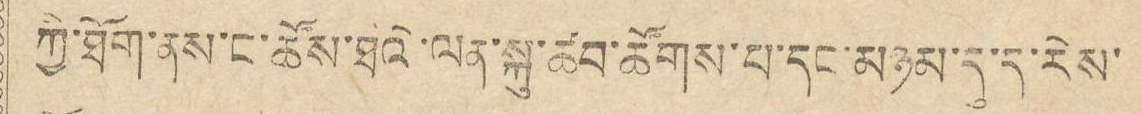ཀྱི་ཐོག་ནས་ང་ཚོས་ཐའི་ལན་སྐུ་ཚབ་ཚོགས་པ་དང་མཉམ་དུ་ད་རེས་
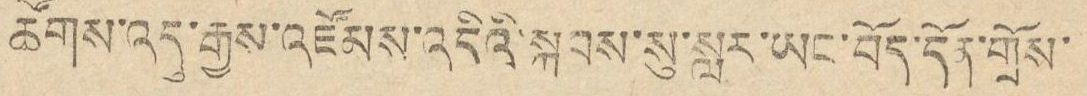ཚོགས་འདུ་རྒྱས་འཛོམས་འདིའི་སྐབས་སུ་སླར་ཡང་བོད་དོན་གྲོས་
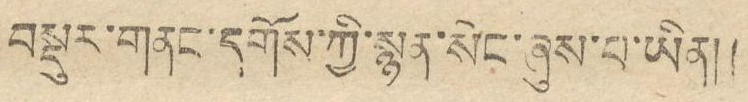བསྡུར་གནང་དགོས་ཀྱི་སྙན་སེང་ཞུས་པ་ཡིན།།
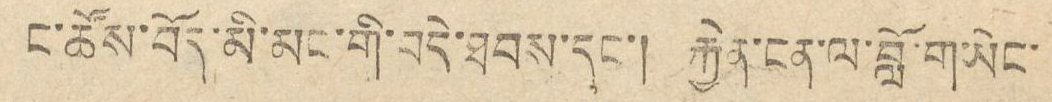ང་ཚོས་བོད་མི་མང་གི་བདེ་ཐབས་དང་། རྐྱེན་ངན་ལ་བློ་གཡེང་
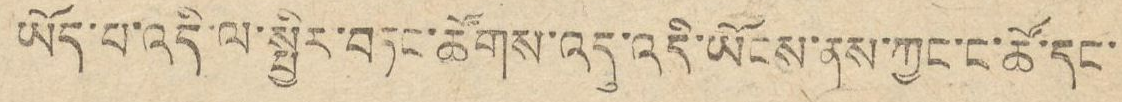ཡོད་པ་འདི་ལ་སྤྱིར་བཏང་ཚོགས་འདུ་འདི་ཡོངས་ནས་ཀྱང་ང་ཚོ་དང་
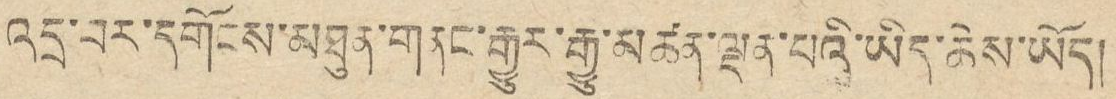འདྲ་བར་དགོངས་མཐུན་གནང་རྒྱུར་རྒྱུ་མཚན་ལྡན་པའི་ཡིད་ཆེས་ཡོད།
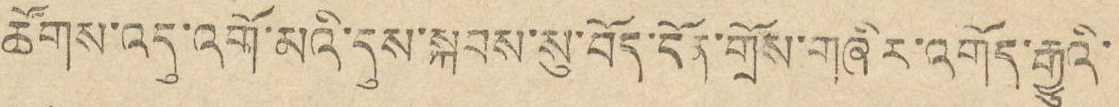ཚོགས་འདུ་འགོ་མའི་དུས་སྐབས་སུ་བོད་དོན་གྲོས་གཞི་ར་འགོད་རྒྱུའི་
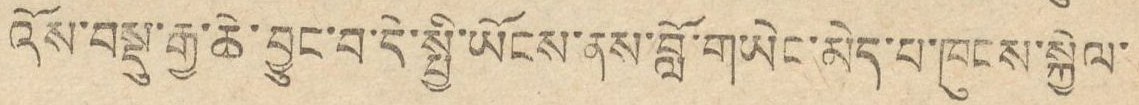འོས་བསྡུ་རྒྱ་ཆེ་བྱུང་བ་དེ་སྤྱི་ཡོངས་ནས་བློ་གཡེང་མེད་པ་ཁུངས་སྐྱེལ་་
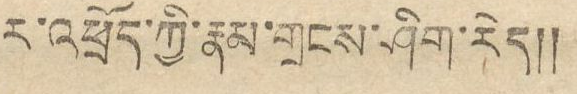ར་འཕྲོད་ཀྱི་རྣམ་གྲངས་ཤིག་རེད།༎
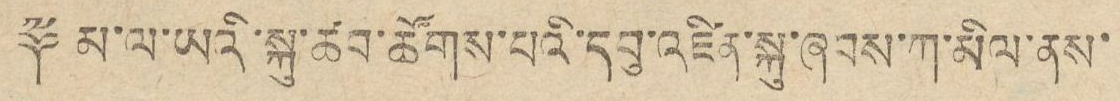༈ མ་ལ་ཡའི་སྐུ་ཚབ་ཚོགས་པའི་དབུ་འཛིན་སྐུ་ཞབས་ཀ་མིལ་ནས་
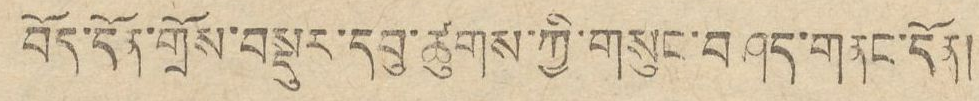བོད་དོན་གྲོས་བསྡུར་དབུ་ཚུགས་ཀྱི་གསུང་བཤད་གནང་དོན།
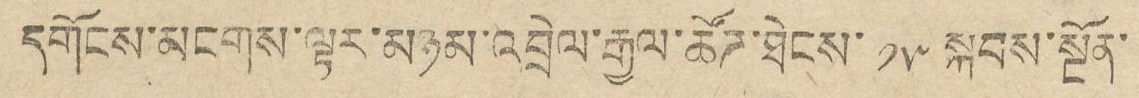དགོངས་མངགས་ལྟར་མཉམ་འབྲེལ་རྒྱལ་ཚོཌ་ཐེངས་ ༡༥ སྐབས་སྔོན་
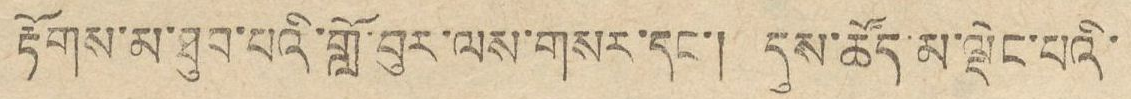རྟོགས་མ་ཐུབ་པའི་གློ་བུར་ལས་གསར་དང་། དུས་ཚོད་མ་ལྡེང་པའི་
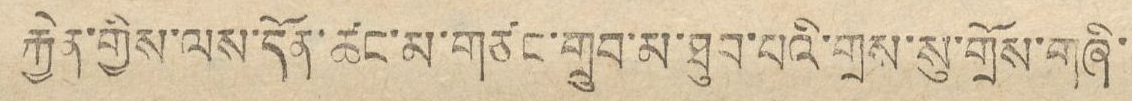རྐྱེན་གྱིས་ལས་དོན་ཚང་མ་གཙང་གྲུབ་མ་ཐུབ་པའི་གྲས་སུ་གྲོས་གཞི་
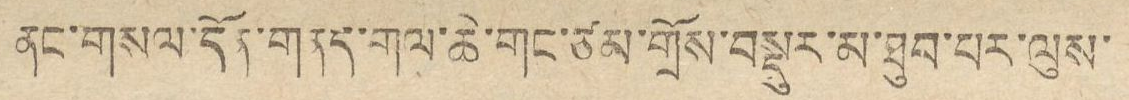ནང་གསལ་དོན་གནད་གལ་ཆེ་གང་ཙམ་གྲོས་བསྡུར་མ་ཐུབ་པར་ལུས་
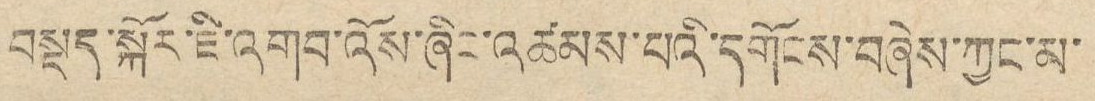བསྡད་སྐོར་ཇི་འགབ་འོས་ཞིང་འཚམས་པའི་དགོངས་བཞེས་ཀྱང་མ་
